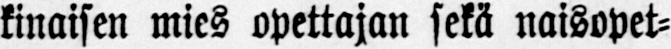kinaisen mies opettajan sekä naisopet-
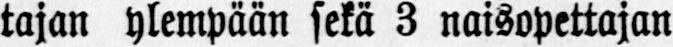tajan ylempään sekä 3 naisopettajan
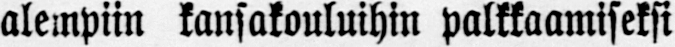alempiin kansakouluihin palkkaamiseksi
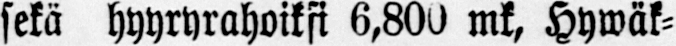sekä hyyryrahoikfi 6,800 mk, Hywäk-
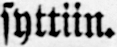syttiin.
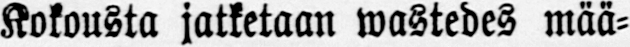Kokousta jatketaan wastedes mää-
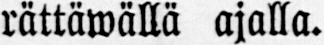rättäwällä ajalla.
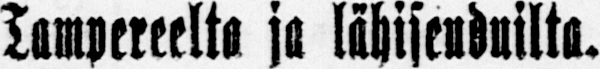Tampereelta ja lähiseuduilta.
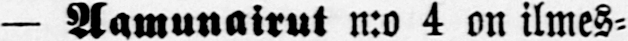— Aamunairut n:o 4 on ilmes-
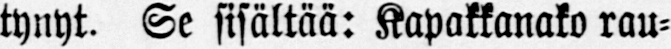tynyt. Se sisältää: Kapakkanako rau-
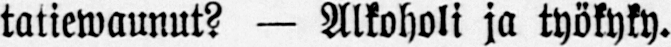tatiewaunut? — Alkoholi ja työkyky.
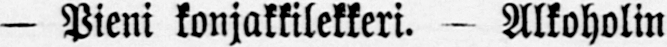— Pieni konjakkilekkeri. - Alkoholin
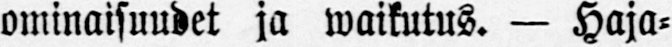ominaisuudet ja waikutus. — Haja-
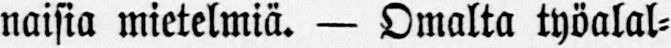naisia mietelmiä. — Omalta työalal-
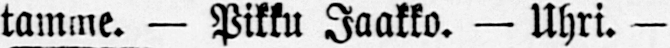tamme. — Pikku Jaakko. — Uhri. —
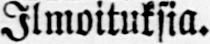Ilmoituksia.
